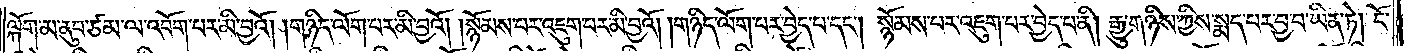ལྐོག་མ་ནུབ་ཙམ་ལ་འབོག་པར་མི་བྱའོ། །གཉིད་ལོག་པར་མི་བྱའོ། །སྙོམས་པར་འཇུག་པར་མི་བྱའོ། །གཉིད་ལོག་བར་བྱེད་པ་དང༌། སྙོམས་པར་འཇུག་པར་བྱེད་པ་ནི། རྒྱུ་གཉིས་ཀྱིས་སྨད་པར་བྱ་བ་ཡིན་ཏེ། ངོ་
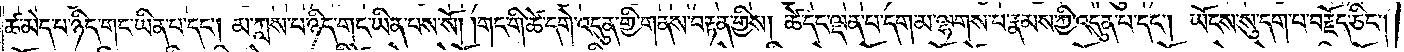ཚ་མེད་པ་ཉིད་གང་ཡིན་པ་དང༌། མ་ཀླས་པ་ཉིད་གང་ཡིན་པས་སོ། །གང་གི་ཚེ་དགེ་འདུན་གྱི་གནས་བརྟན་གྱིས། ཚེ་དང་ལྡན་པ་དག་མ་ལྷགས་པ་རྣམས་ཀྱི་འདུན་པ་དང༌། ཡོངས་སུ་དག་པ་བརྗོད་ཅིང༌།
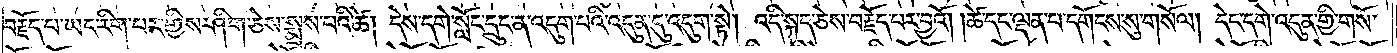བརྗོད་པ་ཡང་རིག་པར་གྱིས་ཤིག་ཅེས་སྨྲས་པའི་ཚེ། དེས་དགེ་སློང་དྲུང་ན་འདུག་པའི་འདུན་དུ་འདུག་སྟེ། འདི་སྐད་ཅེས་བརྗོད་བར་བྱའོ། །ཚེ་དང་ལྡན་པ་དགོངས་སུ་གསོལ། དེང་དགེ་འདུན་གྱི་གསོ་
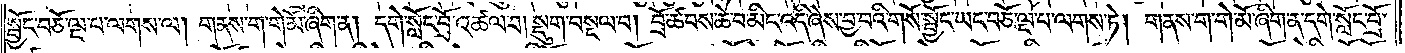སྦྱོང་བཅོ་ལྔ་པ་ལགས་ལ། གནས་ག་གེ་མོ་ཞིག་ན། དགེ་སློང་བྲོ་འཚལ་བ། སྡུག་བསྔལ་བ། བྲོ་ཚབས་ཆེ་བ་མིང་འདི་ཞེས་བྱ་བའི་གསོ་སྦྱོང་ཡང་བཅོ་ལྔ་པ་ལགས་ཏེ། གནས་ག་གེ་མོ་ཞིག་ན་དགེ་སློང་བྲོ་
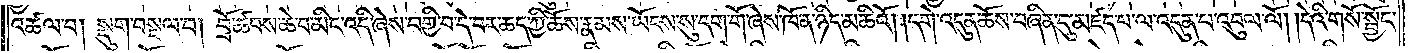འཚལ་བ། སྡུག་བསྔལ་བ། བྲོ་ཚབས་ཆེ་བ་མིང་འདི་ཞེས་བགྱི་བ་དེ་བར་ཆད་ཀྱི་ཆོས་རྣམས་ཡོངས་སུ་དག་གོ་ཞེས་ཁོ་ན་ཉིད་མཆིའོ། །དགེ་འདུན་ཆོས་བཞིན་དུ་མཛད་པ་ལ་འདུན་པ་འབུལ་ལོ། །དེའི་གསོ་སྦྱོང་
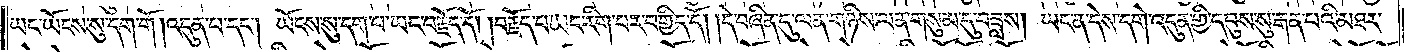ཡང་ཡོངས་སུ་དག་གོ །འདུན་པ་དང༌། ཡོངས་སུ་དག་པ་ཡང་བརྗོད་དོ། །བརྗོད་པ་ཡང་རིག་པར་བགྱིད་དོ། །དེ་བཞིན་དུ་ལན་གཉིས་ལན་གསུམ་དུ་བཟླས། ཡང་ན་དེས་དགེ་འདུན་གྱི་དབུས་སུ་རྒན་པའི་མཐར་
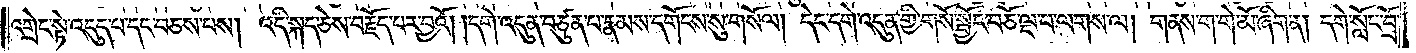འགྲེང་སྟེ་འདུད་པ་དང་བཅས་པས། འདི་སྐད་ཅེས་བརྗོད་པར་བྱའོ། །དགེ་འདུན་བཙུན་པ་རྣམས་དགོངས་སུ་གསོལ། དེང་དགེ་འདུན་གྱི་གསོ་སྦྱོང་བཅོ་ལྔ་བ་ལགས་ལ། གནས་ག་གེ་མོ་ཞིག་ན། དགེ་སློང་བྲོ་
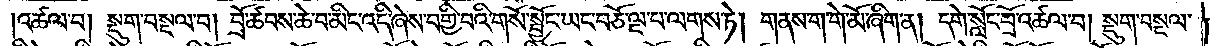འཚལ་བ། སྡུག་བསྔལ་བ། བྲོ་ཚབས་ཆེ་བ་མིང་འདི་ཞེས་བགྱི་བའི་གསོ་སྦྱོང་ཡང་བཅོ་ལྔ་པ་ལགས་ཏེ། གནས་ག་གེ་མོ་ཞིག་ན། དགེ་སློང་བྲོ་འཚལ་བ། སྡུག་བསྔལ་
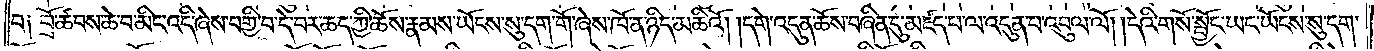བ༑ བྲོ་ཚབས་ཆེ་བ་མིང་འདི་ཞེས་བགྱི་བ་དེ་བར་ཆད་ཀྱི་ཆོས་རྣམས་ཡོངས་སུ་དག་གོ་ཞེས་ཁོ་ན་ཉིད་མཆིའོ། །དགེ་འདུན་ཆོས་བཞིན་དུ་མཛད་པ་ལ་འདུན་པ་འབུལ་ལོ། །དེའི་གསོ་སྦྱོང་ཡང་ཡོངས་སུ་དག་
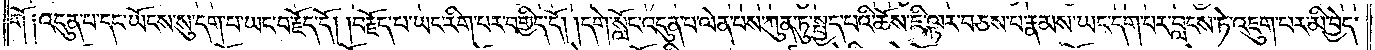གོ༑ འདུན་པ་དང་ཡོངས་སུ་དག་པ་ཡང་བརྗོད་དོ། །བརྗོད་པ་ཡང་རིག་པར་བགྱིད་དོ། །དགེ་སློང་འདུན་པ་ལེན་པས་ཀུན་ཏུ་སྤྱད་པའི་ཆོས་ཇི་ལྟར་བཅས་པ་རྣམས་ཡང་དག་པར་བླངས་ཏེ་འཇུག་པར་མི་བྱེད་
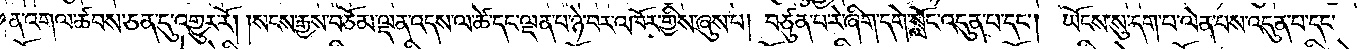ན་འགལ་ཚབས་ཅན་དུ་འགྱུར་རོ། །སངས་རྒྱས་བཅོམ་ལྡན་འདས་ལ་ཚེ་དང་ལྡན་པ་ཉེ་བར་འཁོར་གྱིས་ཞུས་པ། བཙུན་པ་རེ་ཞིག་དགེ་སློང་འདུན་པ་དང༌། ཡོངས་སུ་དག་པ་ལེན་པས་འདུན་པ་དང་
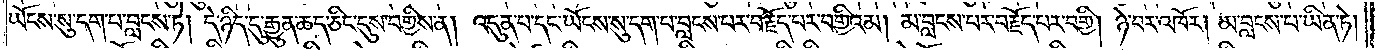ཡོངས་སུ་དག་པ་བླངས་ཏེ། དེ་ཉིད་དུ་རྒྱུན་ཆད་ཅིང་དུས་བགྱིས་ན། འདུན་པ་དང་ཡོངས་སུ་དག་པ་བླངས་པར་བརྗོད་པར་བགྱིའམ། མ་བླངས་པར་བརྗོད་པར་བགྱི། ཉེ་བར་འཁོར། མ་བླངས་པ་ཡིན་ཏེ།
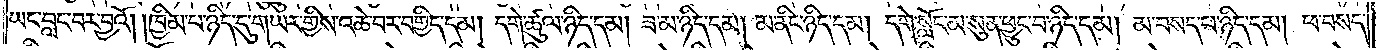ཡང་བླང་བར་བྱའོ། །ཁྱིམ་པ་ཉིད་དུ་གཡར་གྱིས་འཆེ་བར་བགྱིད་དམ། དགེ་ཚུལ་ཉིད་དམ། ཟ་མ་ཉིད་དམ། མ་ནིང་ཉིད་དམ། དགེ་སློང་མ་སུན་ཕྱུང་བ་ཉིད་དམ། མ་བསད་པ་ཉིད་དམ། ཕ་བསད་
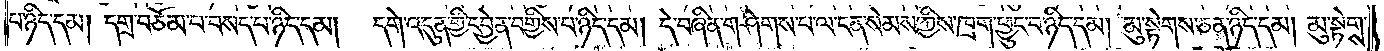པ་ཉིད་དམ། དགྲ་བཅོམ་པ་བསད་པ་ཉིད་དམ། དགེ་འདུན་གྱི་དབྱེན་བགྱིས་པ་ཉིད་དམ། དེ་བཞིན་གཤེགས་པ་ལ་ངན་སེམས་ཀྱིས་ཁྲག་ཕྱུང་བ་ཉིད་དམ། མུ་སྟེགས་ཅན་ཉིད་དམ། མུ་སྟེགས་
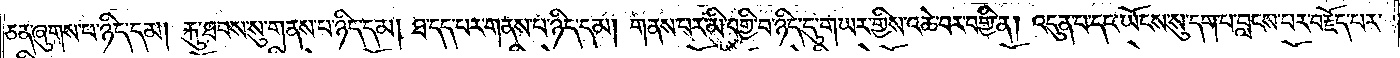ཅན་ཞུགས་པ་ཉིད་དམ། རྐུ་ཐབས་སུ་གནས་པ་ཉིད་དམ། ཐ་དད་པར་གནས་པ་ཉིད་དམ། གནས་པར་མི་བགྱི་བ་ཉིད་དུ་གཡར་གྱིས་འཆེ་བར་བགྱི་ན། འདུན་པ་དང་ཡོངས་སུ་དག་པ་བླངས་པར་བརྗོད་པར་
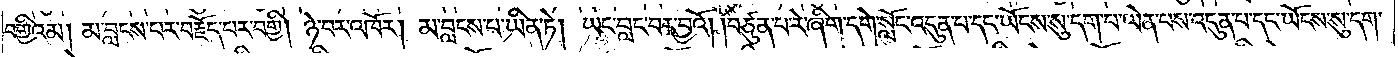བགྱིའམ། མ་བླངས་པར་བརྗོད་པར་བགྱི། ཉེ་བར་འཁོར། མ་བླངས་པ་ཡིན་ཏེ། ཡང་བླང་བར་བྱའོ། །བཙུན་པ་རེ་ཞིག་དགེ་སློང་འདུན་པ་དང་ཡོངས་སུ་དག་པ་ལེན་པས་འདུན་པ་དང་ཡོངས་སུ་དག་
